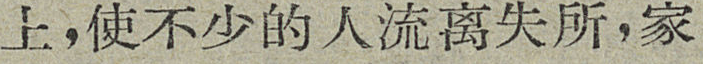上，使不少的人流离失所，家
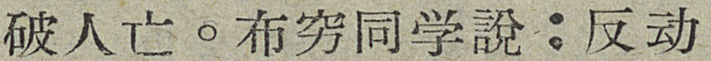破人亡。布穷同学說：反动
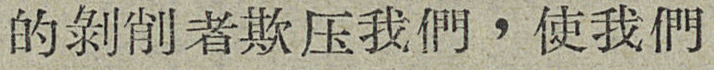的剝削者欺压我們，使我們
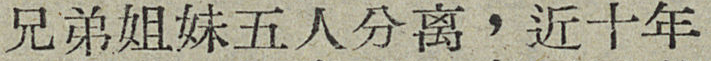兄弟姐妹五人分离，近十年
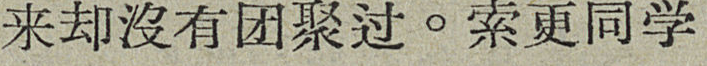来却沒有团聚过。索更同学
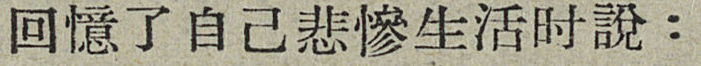回憶了自己悲慘生活时說：
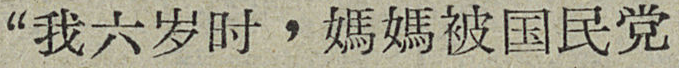“我六岁时，媽媽被国民党
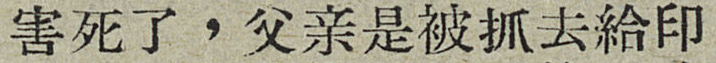害死了，父亲是被抓去給印
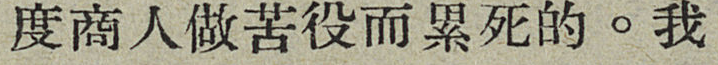度商人作苦役而累死的。我
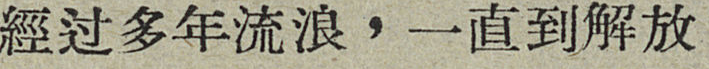經过多年流浪，一直到解放
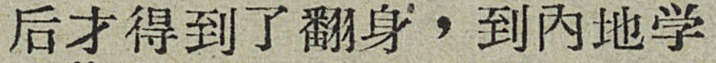后才得到了翻身，到内地学
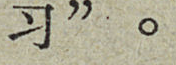习”。
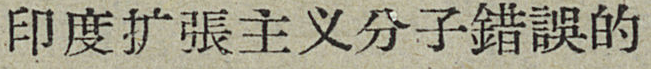印度扩張主义分子錯誤的
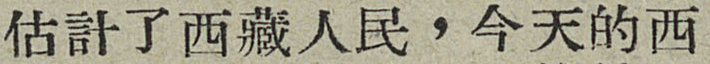估計了西藏人民，今天的西
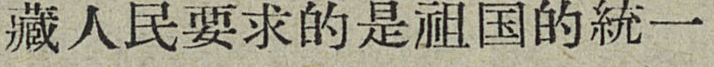藏人民要求的是祖国的統一
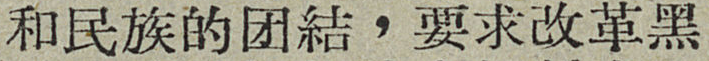和民族的团結，要求改革黑
